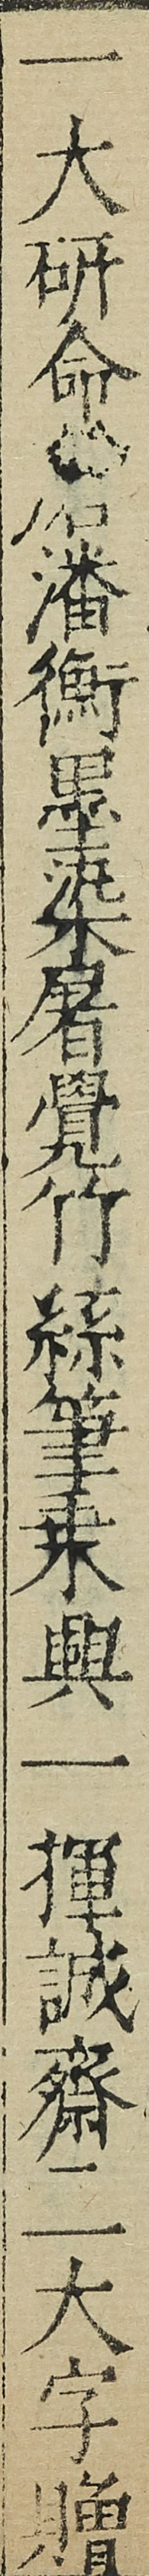一大研命磨潘衡墨染屠覺竹絲筆乗興一揮誠齋二大字贈
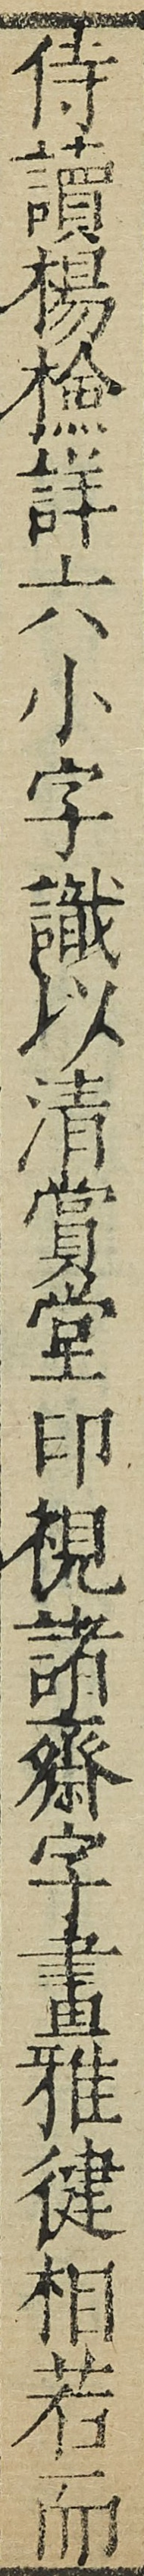侍讀楊檢詳六小字識以清賞堂印視諸齋字畫雅徤相若而
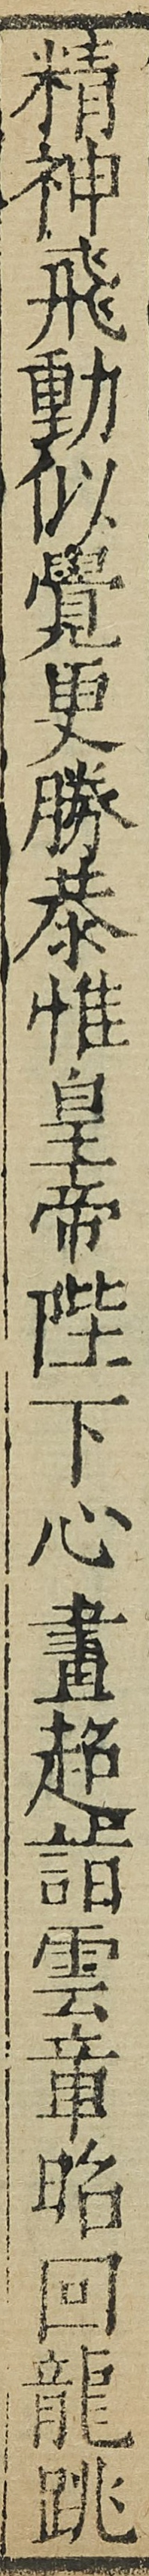精神飛動似覺更勝恭惟皇帝陛下心畫超詣雲章昭回龍跳
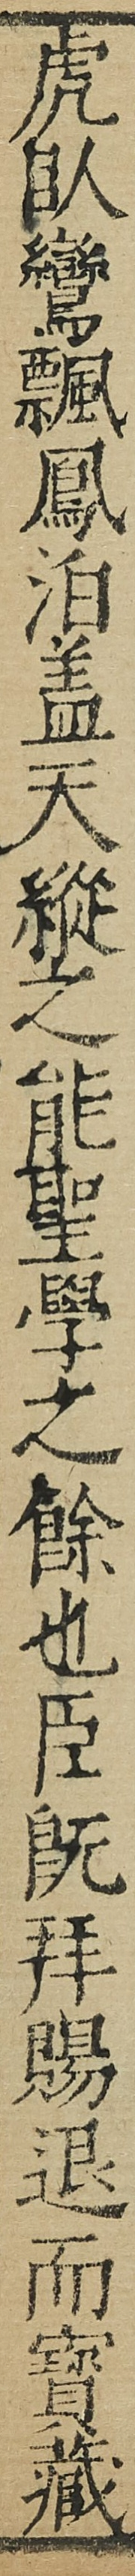虎臥鸞飄鳯泊蓋天縱之能聖學之餘也臣旣拜賜退而寶藏
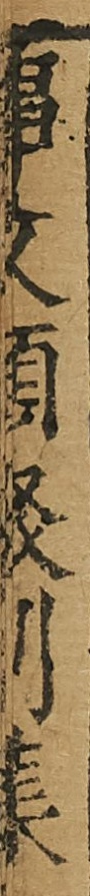事文類聚别集
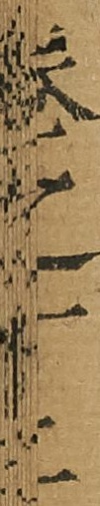卷之十二
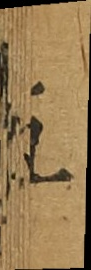五
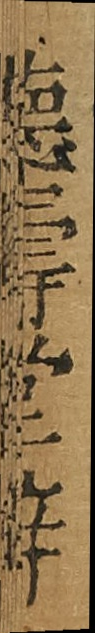德壽堂梓
